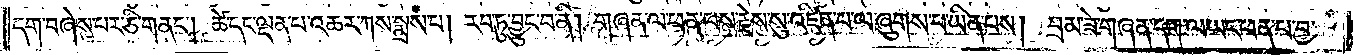དག་བཞེས་པར་ཅི་གནང༌། ཚེ་དང་ལྡན་པ་འཆར་ཀས་སྨྲས་པ། རབ་ཏུ་བྱུང་བ་ནི། གཞན་ལ་ཕན་པས་རྗེས་སུ་འཛིན་པ་ལ་ཞུགས་པ་ཡིན་པས། བྲམ་ཟེ་གཞན་དག་ལ་ཡང་ཕན་པ་བྱ་
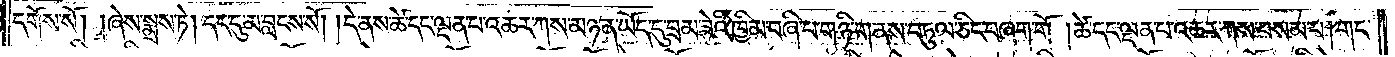དགོས་སོ། །ཞེས་སྨྲས་ཏེ། དང་དུ་མ་བླངས་སོ། །དེ་ནས་ཚེ་དང་ལྡན་པ་འཆར་ཀས་མཉན་ཡོད་དུ་བྲམ་ཟེའི་ཁྱིམ་བཞི་པ་གཉི་ག་ནས་བཏུལ་ཅིང་བཞག་གོ །ཚེ་དང་ལྡན་པ་འཆར་ཀས་བསམ་པ། གང་
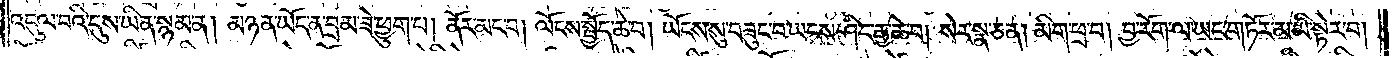འདུལ་བའི་དུས་ཡིན་སྙམ་ན། མཉན་ཡོད་ན་བྲམ་ཟེ་ཕྱུག་པ། ནོར་མང་བ། ལོངས་སྤྱོད་ཆེ་བ། ཡོངས་སུ་བཟུང་བ་ཡངས་ཤིང་རྒྱ་ཆེ་བ། སེར་སྣ་ཅན། མིག་ཕྲ་བ། བྱ་རོག་ལ་ཡང་གཏོར་མ་མི་སྟེར་བ།
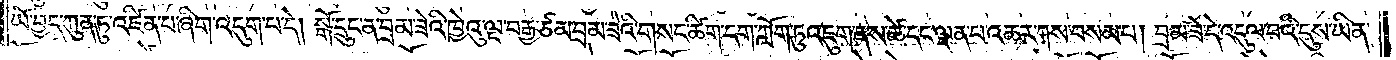ཡོ་བྱད་ཀུན་ཏུ་འཛིན་པ་ཞིག་འདུག་པ་དེ། སྒོ་དྲུང་ན་བྲམ་ཟེའི་ཁྱེའུ་ལྔ་བརྒྱ་ཙམ་བྲམ་ཟེའི་གསང་ཚིག་དག་ཀློག་ཏུ་འཇུག་ནས་ཚེ་དང་ལྡན་པ་འཆར་ཀས་བསམ་པ། བྲམ་ཟེ་དེ་འདུལ་བའི་དུས་ཡིན་
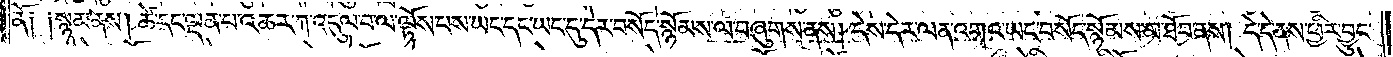ནོ༑ ༑སྙམ་ནས། ཚེ་དང་ལྡན་པ་འཆར་ཀ་འདུལ་བ་ལ་ལྟོས་པས་ཡང་དང་ཡང་དུ་དེར་བསོད་སྙོམས་ལ་བཞུགས་ནས། དེས་དེར་ལན་འགའ་ཡང་བསོད་སྙོམས་མ་ཐོབ་ནས། དེ་དེ་ནས་ཕྱིར་བྱུང་
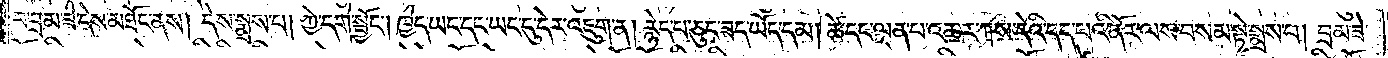བ་བྲམ་ཟེ་དེས་མཐོང་ནས། དེས་སྨྲས་པ། ཀྱེ་དགེ་སྦྱོང༌། ཁྱེད་ཡང་དང་ཡང་དུ་དེར་འཇུག་ན། རྙེད་པ་ཅུང་ཟད་ཡོད་དམ། ཚེ་དང་ལྡན་པ་འཆར་ཀས་དེའི་དད་པའི་ནོར་ལས་བསམ་སྟེ་སྨྲས་པ། བྲམ་ཟེ་
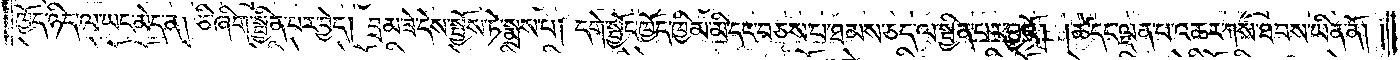ཁྱོད་ཉིད་ལ་ཡང་མེད་ན། ཅི་ཞིག་སྦྱིན་པར་བྱེད། བྲམ་ཟེ་དེས་སྤྱོས་ཏེ་སྨྲས་པ། དགེ་སྦྱོང་ཁྱོད་ཁྱིམ་མི་དང་བཅས་པ་ཐམས་ཅད་ལ་སྦྱིན་པར་བྱའོ། །ཚེ་དང་ལྡན་པ་འཆར་ཀས་ཐབས་ཡིན་ནོ། །
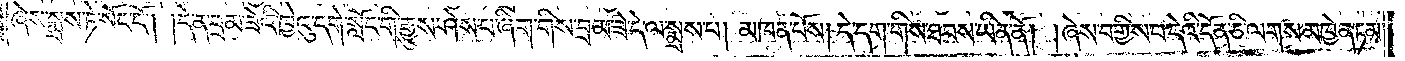ཞེས་སྨྲས་ཏེ་སོང་ངོ༌། །དེ་ན་བྲམ་ཟེའི་ཁྱེའུ་དགེ་སློང་གི་རྒྱུས་ཤེས་པ་ཞིག་གིས་བྲམ་ཟེ་དེ་ལ་སྨྲས་པ། མཁན་པོས། དེ་དག་གིས་ཐབས་ཡིན་ནོ། །ཞེས་བགྱིས་པ་དེའི་དོན་ཅི་ལགས་མཁྱེན་ཏམ་
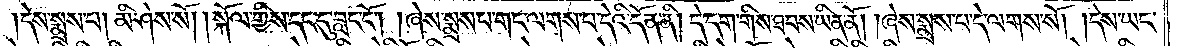དེས་སྨྲས་པ། མི་ཤེས་སོ། །སྐོལ་གྱིས་དང་དུ་བླང་ངོ༌། །ཞེས་སྨྲས་པ་གང་ལགས་པ་དེའི་དོན་ནི། དེ་དག་གིས་ཐབས་ཡིན་ནོ། །ཞེས་སྨྲས་པ་དེ་ལགས་སོ། །དེས་ཡང་
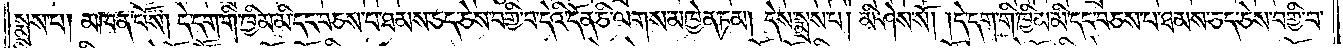སྨྲས་པ། མཁན་པོས། དེ་དག་གི་ཁྱིམ་མི་དང་བཅས་པ་ཐམས་ཅད་ཅེས་བགྱི་བ་དེའི་དོན་ཅི་ལགས་མཁྱེན་ཏམ། དེས་སྨྲས་པ། མི་ཤེས་སོ། །དེ་དག་གི་ཁྱིམ་མི་དང་བཅས་པ་ཐམས་ཅད་ཅེས་བགྱི་བ་
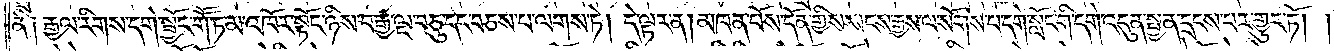ནི༑ རྒྱལ་རིགས་དགེ་སྦྱོང་གཽ་ཏ་མ་འཁོར་སྟོང་ཉིས་བརྒྱ་ལྔ་བཅུ་དང་བཅས་པ་ལགས་ཏེ། དེ་ལྟར་ན། མཁན་པོས་དོན་གྱིས་སངས་རྒྱས་ལ་སོགས་པ་དགེ་སློང་གི་དགེ་འདུན་སྤྱན་དྲངས་པར་གྱུར་ཏོ། །
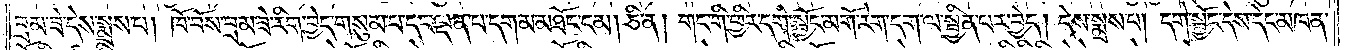བྲམ་ཟེ་དེས་སྨྲས་པ། ཁོ་བོས་བྲམ་ཟེ་རིག་བྱེད་གསུམ་པ་དང་ལྡན་པ་དག་མ་མཐོང་ངམ། ཅི་ན། གང་གི་ཕྱིར་དགེ་སྦྱོང་མགོ་རེག་དག་ལ་སྦྱིན་པར་བྱེད། དེས་སྨྲས་པ། དགེ་སྦྱོང་དེས་དེང་མཁན་
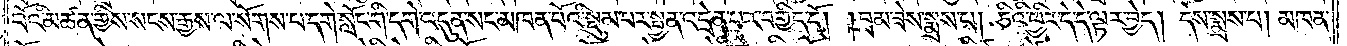པོའི་མཚན་གྱིས་སངས་རྒྱས་ལ་སོགས་པ་དགེ་སློང་གི་དགེ་འདུན་སང་མཁན་པོའི་སྡུམ་པར་སྤྱན་འདྲེན་པར་བགྱིད་དོ། །བྲམ་ཟེས་སྨྲས་པ། ཅིའི་ཕྱིར་དེ་དེ་ལྟར་བྱེད། དེས་སྨྲས་པ། མཁན་
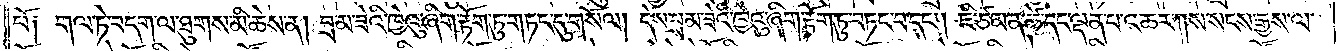པོ༑ གལ་ཏེ་བདག་ལ་ཐུགས་མི་ཆེས་ན། བྲམ་ཟེའི་ཁྱེའུ་ཞིག་རྟོག་ཏུ་གཏང་དུ་གསོལ། དེས་བྲམ་ཟེའི་ཁྱེའུ་ཞིག་རྟོག་ཏུ་བཏང་བ་དང༌། ཇི་ཙམ་ན་ཚེ་དང་ལྡན་པ་འཆར་ཀས་སངས་རྒྱས་ལ་
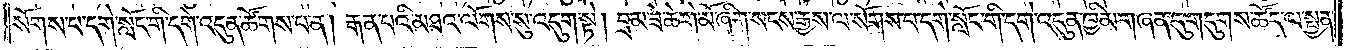སོགས་པ་དགེ་སློང་གི་དགེ་འདུན་ཚོགས་པ་ན། རྒན་པའི་མཐའ་ལོགས་སུ་འདུག་སྟེ། བྲམ་ཟེ་ཆེ་གེ་མོ་ཞིག་སངས་རྒྱས་ལ་སོགས་པ་དགེ་སློང་གི་དགེ་འདུན་ཁྱིམ་གཞན་དུ་གདུགས་ཚོད་ལ་སྤྱན་
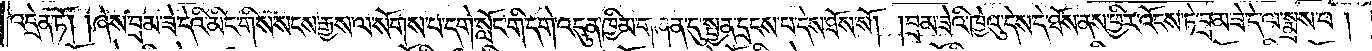འདྲེན་ཏོ། །ཞེས་བྲམ་ཟེ་དེའི་མིང་གིས་སངས་རྒྱས་ལ་སོགས་པ་དགེ་སློང་གི་དགེ་འདུན་ཁྱིམ་གཞན་དུ་སྤྱན་དྲངས་བ་དེས་ཐོས་སོ། །བྲམ་ཟེའི་ཁྱེའུ་དེས་དེ་ཐོས་ནས་ཕྱིར་འོངས་ཏེ་བྲམ་ཟེ་དེ་ལ་སྨྲས་པ །
